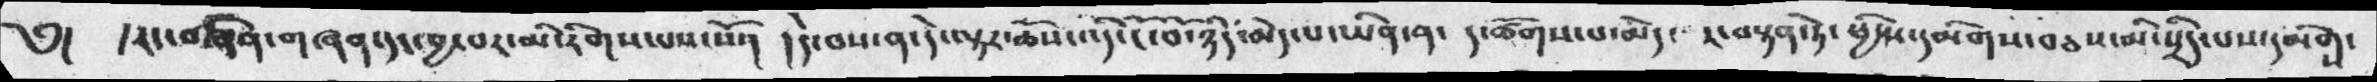༄།  །རང་བཞིན་གཞན་དང་ཁྱད་པར་མི་རིགས་པས་སོ་།  །དེ་བས་ན་དེ་ལྟར་ཆོས་འདི་ངོ་བོ་ཉིད་མེད་པ་ཡིན་ན་། ད་ཚོགས་པ་མེད་པར་བསྟན་ཏེ་ཕྱིས་དམིགས་བཅས་མི་སྲིད་པས་དམིགས་
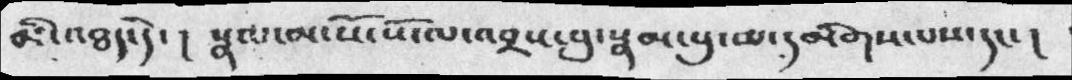མི་འཐད་དེ་།  སྣལ་མ་སོ་སོ་ལ་འབྲས་བུ་སྣམ་བུ་མ་དམིགས་པས་དང་།
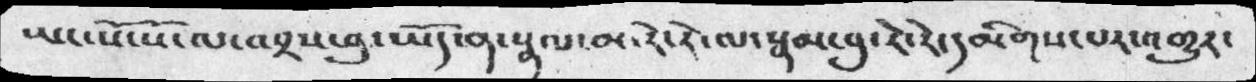ཡང་སོ་སོ་ལ་འབྲས་བུ་ཡོད་ན་སྣལ་མ་རེ་རེ་ལ་སྣམ་བུ་རེ་རེ་དམིགས་པར་འགྱུར་
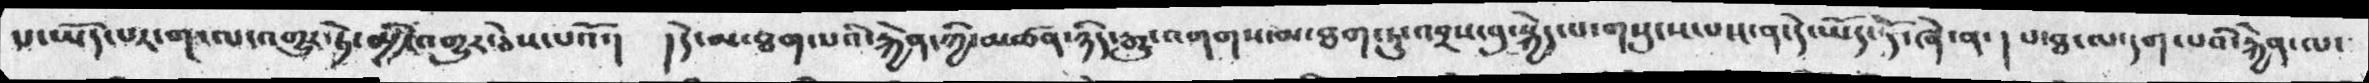པ་ཡོད་པར་ག་ལ་འགྱུར་ཏེ་མྱི་འགྱུར་ཅེས་པའོ་།  །དེ་མ་ཐག་པའི་རྐྱེན་ཀྱི་མཚན་ཉིད་རྒྱུ་འགགས་མ་ཐག་ཏུ་འབྲས་བུ་སྐྱེད་པ་གསུངས་པས་ན་དེ་ཡོད་དོ་ཞེ་ན་། པ་ཐ་ལ་དག་པའི་རྐྱེན་ལ་
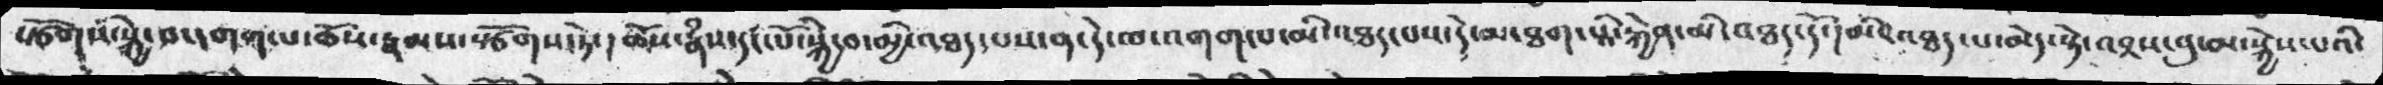སྩོགས་སྐྱེ་བ་དགག་པ་ཆོས་རྣམས་སྩོགས་ཏེ་།   ཆོས་རྣཾས་དང་པོ་སྐྱེ་བ་མྱི་འཐད་པས་ན་དེ་ལ་འགག་པ་མི་འཐད་པས་དེ་མ་ཐག་པའི་རྐྱེན་མི་འཐད་དོ་།  མི་འཐད་པ་མེད་སྟེ་འབྲས་བུ་མ་སྐྱེས་པའི་
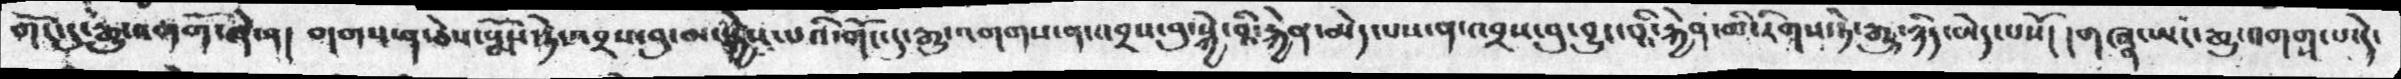གོང་དུ་རྒྱུ་འགགོ་ཞེ་ན།  བདགས་ན་ཅེས་སྨོས་ཏེ་འབྲས་བུ་མ་སྐྱེས་པའི་གོང་དུ་རྒྱུ་འགགས་ན་འབྲས་བུ་སྐྱེ་བའི་རྐྱེན་མེད་པས་ན་འབྲས་བུ་བྱུང་བའི་རྐྱེན་མི་རིགས་ཏེ་རྒྱུ་ཉིད་མེད་པསོ།  །གཞན་ཨང་རྒྱུ་འགག་པ་དེ་
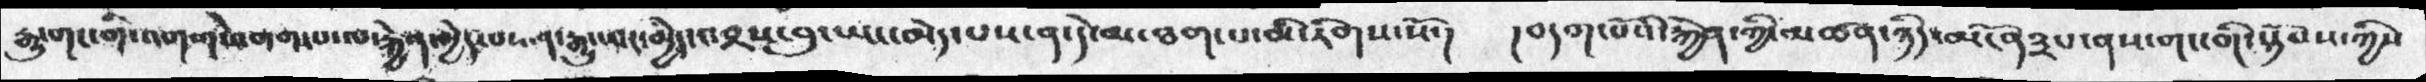རྒྱུ་གང་གི་འགག་འགག་པ་ལ་རྐྱེན་མྱེད་པས་ན་རྒྱུ་ཡང་མྱེད་འབྲས་བུ་ཡང་མེད་པས་ན་དེ་མ་ཐག་པ་མི་རིགས་སོ་།  །བདག་པོའི་རྐྱེན་ཀྱི་མཚན་ཉིད་མངོན༣པ་ནས་གང་གི་སྟོབས་ཀྱིས
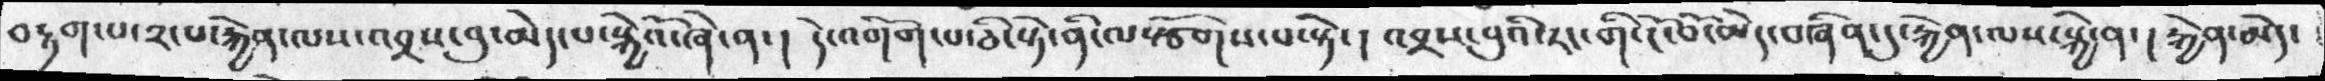བརྟག་པ་༢་པ་རྐྱེན་ལས་འབྲས་བུ་མེད་པ་སྐྱེའོ་ཞེ་ན་།  དེ་འགོག་པ་ཅི་སྟེ་ནི་ལསྩོགས་པ་སྟེ་། འབྲས་བུའི་རང་གི་ངོ་བོ་མེད་བཞིན་དུ་རྐྱེན་ལས་སྐྱེ་ན་།  རྐྱེན་མེད་
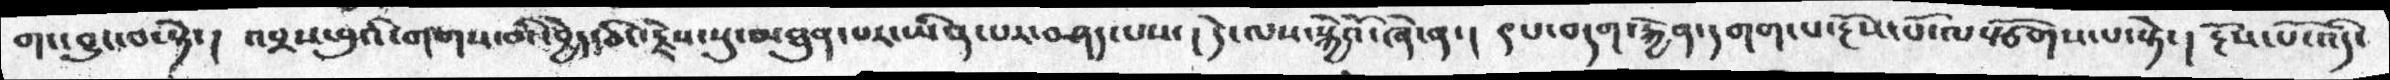གང་བྱུང་བ་སྟེ་།  འབྲས་བུའི་གགས་མི་བྱེད་ཅིང་རྗེས་སུ་མཐུན་པར་ཡིན་པར་བཤད་པས་།  དེ་ལས་སྐྱེའོ་ཞེ་ན་།  །པ་བདག་རྐྱེན་དགག་པ་རྔོས་པོ་ལསྩོགས་པ་སྟེ་། རྔོས་པོ་འདི་
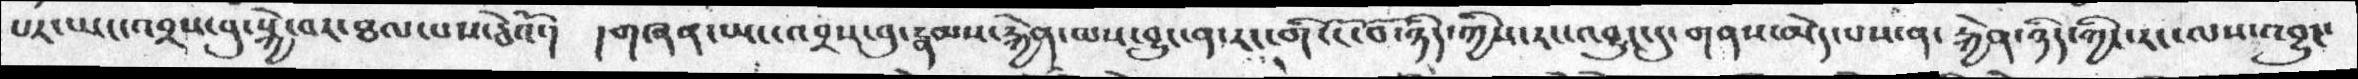པར་ཡང་འབྲས་བུ་སྐྱེ་བར་ཐལ་པས་ཅེའོ་།  །གཞཉ་ཡང་འབྲས་བུ་རྣམས་རྐྱེན་ལས་བྱུང་ན་རང་གི་ངོ་བོ་ཉིད་ཀྱིས་རང་འབྱུང་དུ་གནས་མེད་པས་ན་རྐྱེན་ཉིད་ཀྱི་རང་ལས་འབྱུང་
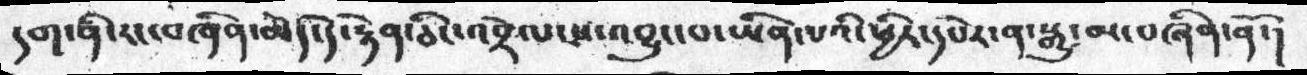དག་ནི་རང་བཞིན་མེད་དེ་རྟེན་ཅིང་འབྲེལ་པ་འབྱུང་བ་ཡིན་པའི་ཕྱིར་དཔེར་ན་སྒྱུ་མ་བཞིན་ནོ་།
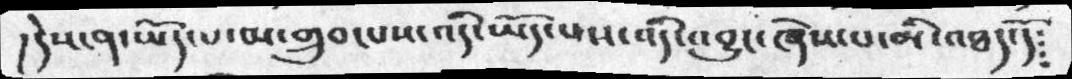།དེས་ན་ཡོད་པ་མ་གྲུབ་པས་འདི་ཡོད་པས་འདི་འབྱུང་ཞེས་པ་མི་འཐད་དོ༴
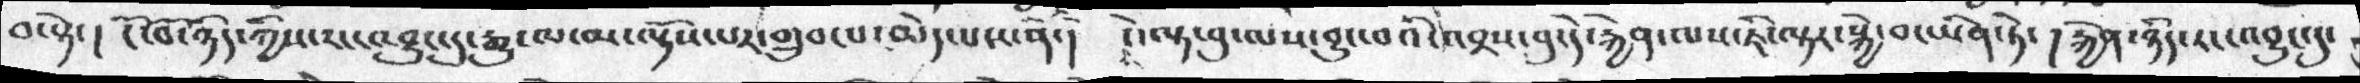བ་སྟེ་། ངོ་བོ་ཉིད་ཀྱིས་རང་འབྱུང་དུ་རྒྱུ་ལ་མ་ལྟོས་པར་གྲུབ་པ་མེད་པས་ན་།  དེ་ལྟར་བུ་ལས་བྱུང་བའི་འབྲས་བུ་དེ་རྐྱེན་ལས་ཇི་ལྟར་སྐྱེ་བ་ཡིན་ཏེ་། རྐྱེན་ཉིད་རང་འབྱུང་དུ་
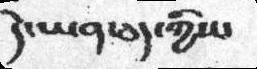དེ་ཡན་ཅད་ཀྱིས་
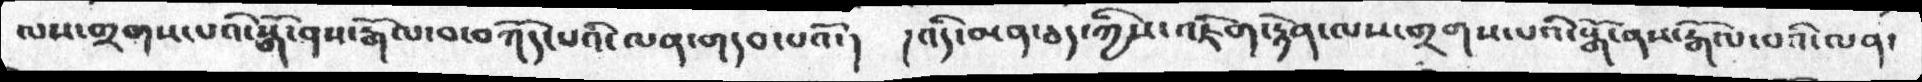ལས་གྲགས་པའི་སྒོ་ནས་རྒོལ་བ་བཀོད་པའི་ལན་གདབ་པའོ་།  །འདི་མན་ཅད་ཀྱིས་འཇིག་རྟེན་ལས་གྲགས་པའི་སྒོ་ནས་རྒོལ་བའི་ལན་
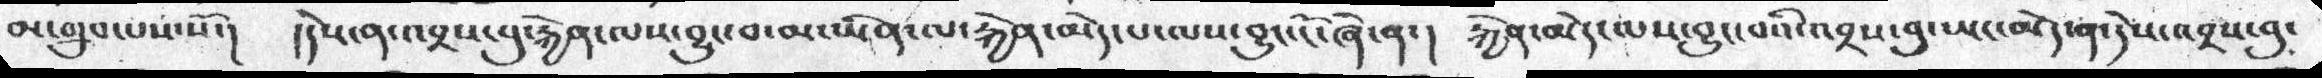མ་གྲུབ་པས་སོ་།  །དེས་ན་འབྲས་བུ་རྐྱེན་ལས་བྱུང་བ་མ་ཡིན་ལ་རྐྱེན་མེད་པ་ལས་བྱུང་ངོ་ཞེ་ན་།  རྐྱེན་མེད་ལས་བྱུང་བའི་འབྲས་བུ་ཡང་མེད་ན་དེས་འབྲས་བུ་
